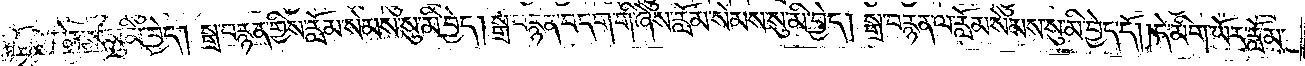བརྙན་རློམ་སེམས་སུ་མི་བྱེད། སྒྲ་བརྙན་གྱིས་རློམ་སེམས་སུ་མི་བྱེད། སྒྲ་བརྙན་བདག་གི་ཞེས་རློམ་སེམས་སུ་མི་བྱེད། སྒྲ་བརྙན་ལ་རློམ་སེམས་སུ་མི་བྱེད་དོ། །དེ་མིག་ཡོར་རློམ་
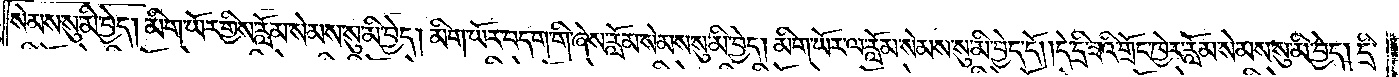སེམས་སུ་མི་བྱེད། མིག་ཡོར་གྱིས་རློམ་སེམས་སུ་མི་བྱེད། མིག་ཡོར་བདག་གི་ཞེས་རློམ་སེམས་སུ་མི་བྱེད། མིག་ཡོར་ལ་རློམ་སེམས་སུ་མི་བྱེད་དོ། །དེ་དྲི་ཟའི་གྲོང་ཁྱེར་རློམ་སེམས་སུ་མི་བྱེད། དྲི་
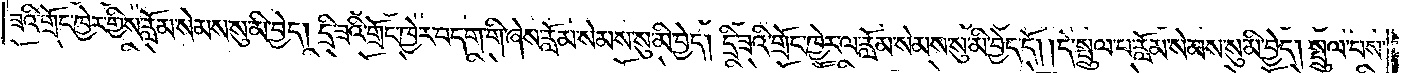ཟའི་གྲོང་ཁྱེར་གྱིས་རློམ་སེམས་སུ་མི་བྱེད། དྲི་ཟའི་གྲོང་ཁྱེར་བདག་གི་ཞེས་རློམ་སེམས་སུ་མི་བྱེད། དྲི་ཟའི་གྲོང་ཁྱེར་ལ་རློམ་སེམས་སུ་མི་བྱེད་དོ། །དེ་སྤྲུལ་པ་རློམ་སེམས་སུ་མི་བྱེད། སྤྲུལ་པས་
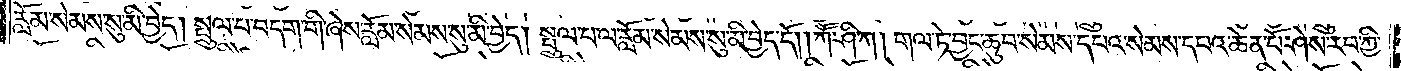རློམ་སེམས་སུ་མི་བྱེད། སྤྲུལ་པ་བདག་གི་ཞེས་རློམ་སེམས་སུ་མི་བྱེད། སྤྲུལ་པ་ལ་རློམ་སེམས་སུ་མི་བྱེད་དོ། །ཀཽ་ཤི་ཀ། གལ་ཏེ་བྱང་ཆུབ་སེམས་དཔའ་སེམས་དཔའ་ཆེན་པོ་ཤེས་རབ་ཀྱི་
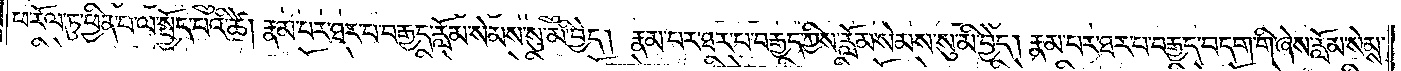ཕ་རོལ་ཏུ་ཕྱིན་པ་ལ་སྤྱོད་པའི་ཚེ། རྣམ་པར་ཐར་པ་བརྒྱད་རློམ་སེམས་སུ་མི་བྱེད། རྣམ་པར་ཐར་པ་བརྒྱད་ཀྱིས་རློམ་སེམས་སུ་མི་བྱེད། རྣམ་པར་ཐར་པ་བརྒྱད་བདག་གི་ཞེས་རློམ་སེམས་
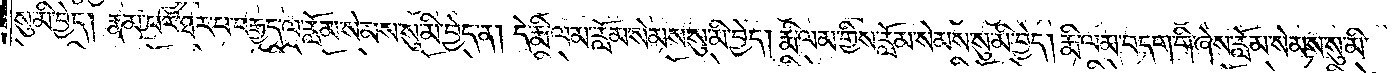སུ་མི་བྱེད། རྣམ་པར་ཐར་པ་བརྒྱད་ལ་རློམ་སེམས་སུ་མི་བྱེད་ན། དེ་རྨི་ལམ་རློམ་སེམས་སུ་མི་བྱེད། རྨི་ལམ་གྱིས་རློམ་སེམས་སུ་མི་བྱེད། རྨི་ལམ་བདག་གི་ཞེས་རློམ་སེམས་སུ་མི་
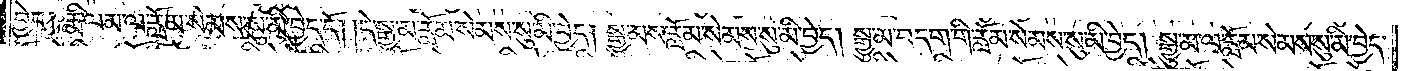བྱེད༑ རྨི་ལམ་ལ་རློམ་སེམས་སུ་མི་བྱེད་དོ། །དེ་སྒྱུ་མ་རློམ་སེམས་སུ་མི་བྱེད། སྒྱུ་མས་རློམ་སེམས་སུ་མི་བྱེད། སྒྱུ་མ་བདག་གི་ཞེས་རློམ་སེམས་སུ་མི་བྱེད། སྒྱུ་མ་ལ་རློམ་སེམས་སུ་མི་བྱེད་
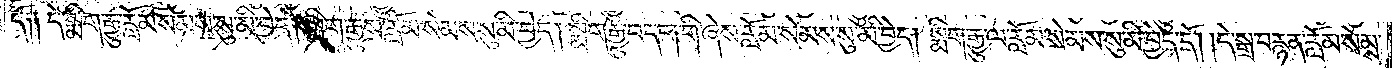དོ༑ ༑དེ་སྨིག་རྒྱུ་རློམ་སེམས་སུ་མི་བྱེད། སྨིག་རྒྱུས་རློམ་སེམས་སུ་མི་བྱེད། སྨིག་རྒྱུ་བདག་གི་ཞེས་རློམ་སེམས་སུ་མི་བྱེད། སྨིག་རྒྱུ་ལ་རློམ་སེམས་སུ་མི་བྱེད་དོ། །དེ་སྒྲ་བརྙན་རློམ་སེམས་
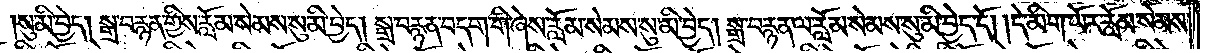སུ་མི་བྱེད། སྒྲ་བརྙན་གྱིས་རློམ་སེམས་སུ་མི་བྱེད། སྒྲ་བརྙན་བདག་གི་ཞེས་རློམ་སེམས་སུ་མི་བྱེད། སྒྲ་བརྙན་ལ་རློམ་སེམས་སུ་མི་བྱེད་དོ། །དེ་མིག་ཡོར་རློམ་སེམས་
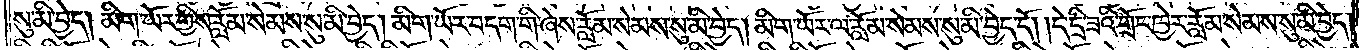སུ་མི་བྱེད། མིག་ཡོར་གྱིས་རློམ་སེམས་སུ་མི་བྱེད། མིག་ཡོར་བདག་གི་ཞེས་རློམ་སེམས་སུ་མི་བྱེད། མིག་ཡོར་ལ་རློམ་སེམས་སུ་མི་བྱེད་དོ། །དེ་དྲི་ཟའི་གྲོང་ཁྱེར་རློམ་སེམས་སུ་མི་བྱེད།
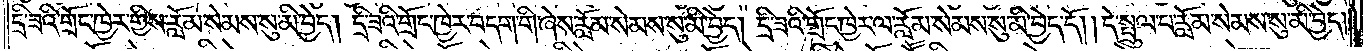དྲི་ཟའི་གྲོང་ཁྱེར་གྱིས་རློམ་སེམས་སུ་མི་བྱེད། དྲི་ཟའི་གྲོང་ཁྱེར་བདག་གི་ཞེས་རློམ་སེམས་སུ་མི་བྱེད། དྲི་ཟའི་གྲོང་ཁྱེར་ལ་རློམ་སེམས་སུ་མི་བྱེད་དོ། །དེ་སྤྲུལ་པ་རློམ་སེམས་སུ་མི་བྱེད།
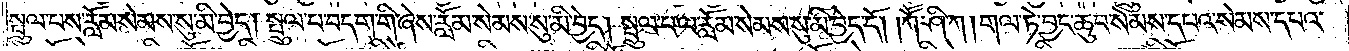སྤྲུལ་པས་རློམ་སེམས་སུ་མི་བྱེད། སྤྲུལ་པ་བདག་གི་ཞེས་རློམ་སེམས་སུ་མི་བྱེད། སྤྲུལ་པ་ལ་རློམ་སེམས་སུ་མི་བྱེད་དོ། །ཀཽ་ཤི་ཀ། གལ་ཏེ་བྱང་ཆུབ་སེམས་དཔའ་སེམས་དཔའ་
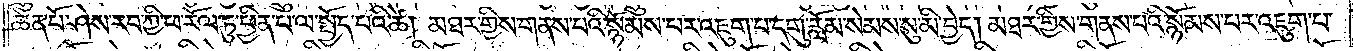ཆེན་པོ་ཤེས་རབ་ཀྱི་ཕ་རོལ་ཏུ་ཕྱིན་པ་ལ་སྤྱོད་པའི་ཚེ། མཐར་གྱིས་གནས་པའི་སྙོམས་པར་འཇུག་པ་དགུ་རློམ་སེམས་སུ་མི་བྱེད། མཐར་གྱིས་གནས་པའི་སྙོམས་པར་འཇུག་པ་
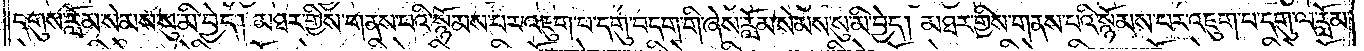དགུས་རློམ་སེམས་སུ་མི་བྱེད། མཐར་གྱིས་གནས་པའི་སྙོམས་པར་འཇུག་པ་དགུ་བདག་གི་ཞེས་རློམ་སེམས་སུ་མི་བྱེད། མཐར་གྱིས་གནས་པའི་སྙོམས་པར་འཇུག་པ་དགུ་ལ་རློམ་
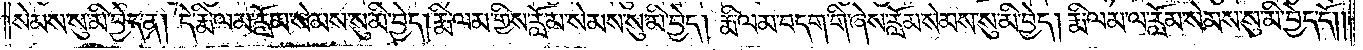སེམས་སུ་མི་བྱེད་ན། དེ་རྨི་ལམ་རློམ་སེམས་སུ་མི་བྱེད། རྨི་ལམ་གྱིས་རློམ་སེམས་སུ་མི་བྱེད། རྨི་ལམ་བདག་གི་ཞེས་རློམ་སེམས་སུ་མི་བྱེད། རྨི་ལམ་ལ་རློམ་སེམས་སུ་མི་བྱེད་དོ། །
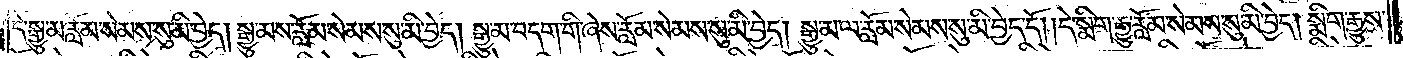དེ་སྒྱུ་མ་རློམ་སེམས་སུ་མི་བྱེད། སྒྱུ་མས་རློམ་སེམས་སུ་མི་བྱེད། སྒྱུ་མ་བདག་གི་ཞེས་རློམ་སེམས་སུ་མི་བྱེད། སྒྱུ་མ་ལ་རློམ་སེམས་སུ་མི་བྱེད་དོ། །དེ་སྨིག་རྒྱུ་རློམ་སེམས་སུ་མི་བྱེད། སྨིག་རྒྱུས་
